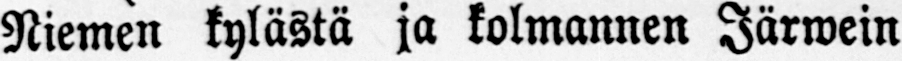Niemen kylästä ja kolmannen Järwein
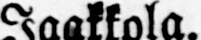Jaakkola.
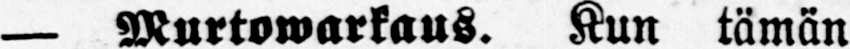— Murtowarkaus. Kun tämän
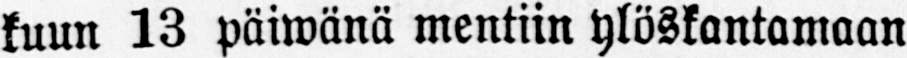kuun 13 päiwänä mentiin ylöskantamaan
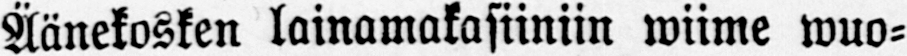Äänekosken lainamakasiiniin wiime wuo-
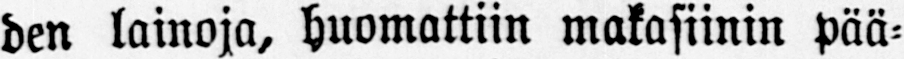den lainoja, huomattiin makasiinin pää-
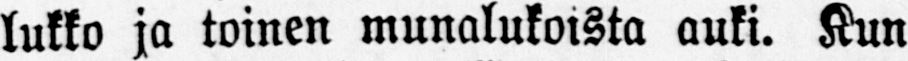lukko ja toinen munalukoista auki. Kun
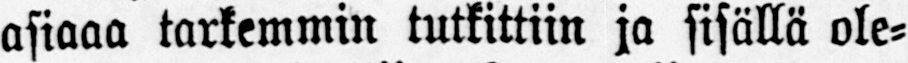asiaaa tarkemmin tutkittiin ja sisällä ole-
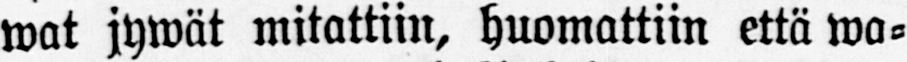wat jywät mitattiin, huomattiin että wa-
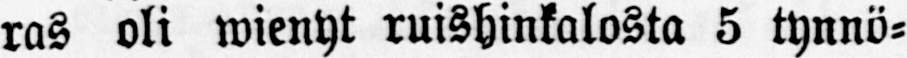ras oli wienyt ruishinkalosta 5 tynnö-
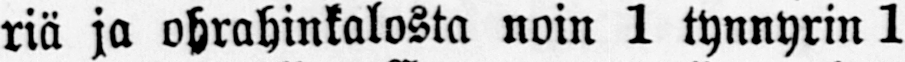riä ja ohrahinkalosta noin 1 tynnyrin 1
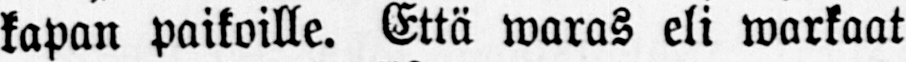kapan paikoille. Että waras eli warkaat
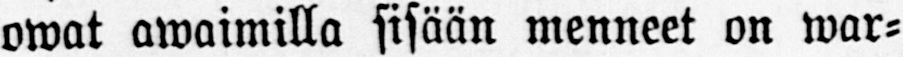owat awaimilla sisään menneet on war-
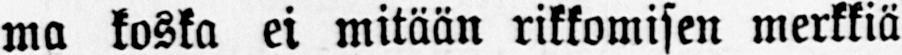ma koska ei mitään rikkomisen merkkiä
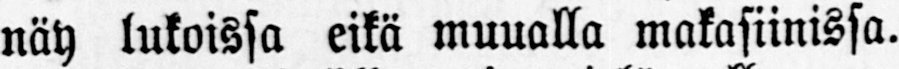näy lukoissa eikä muualla makasiinissa.
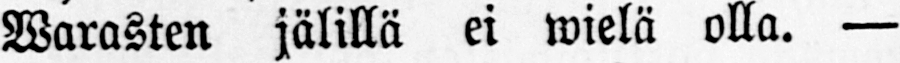Warasten jälillä ei wielä olla. —
